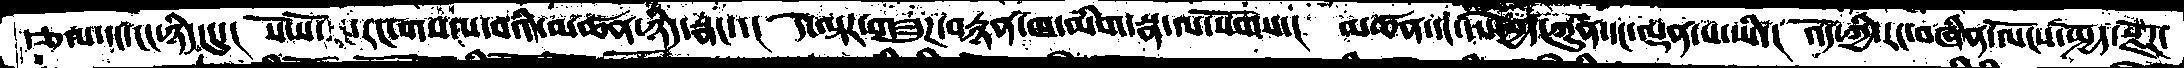རྩལ་དང་ངང་ཉིད་དུ་།  སོ་སོར་རང་རང་གསལ་བའི་མཚན་ཉིད་སྣང་་།  དེ་ལྟར་གཟུཌ་བརྙན་ཁ་མིག་སྣ་ལ་སོགས་།  མཚན་དང་དཔེ་བྱད་ཀུན་དང་ལྡན་པ་ཡི་།  འོད་ཀྱི་རང་བཞིན་ལོངས་སྤྱོད་སྫོཌ་
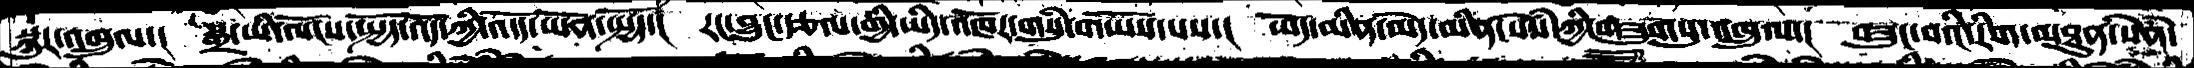སྐུར་འཁྲུལ་།  སྒྲ་ཡི་ལོངས་སྤྱོད་འོད་ཀྱི་འདོད་ཡོན་སྤྱོད་།  རང་བྱུང་རྩལ་གྱི་ཡིད་འཁོར་གསུཾ་གཡོས་པས་།  ཡོད་མིན་མེད་མིན་སེཾས་ཀྱི་གཟུགསུ་འཁྲུལ་།  བཟུང་བའི་རིག་མཐུན་སེཾན་
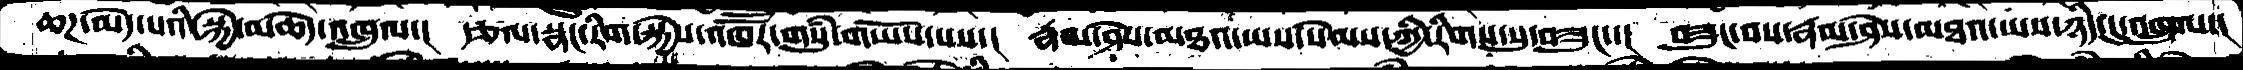ཆཌ་མེད་པའི་སྐྱེ་མཆེད་འཁྲུལ་།  རྩལ་སྣང་རིག་སྐྱེས་འཁཽར་གསུཾ་གཡོས་པས་།  རྣམ་ཤེས་མཐའ་ཡས་སེམས་ཀྱི་རིགས་སུ་བཟུང་་། བཟུང་བས་རྣམ་ཤེས་མཐའ་ཡས་ཉིད་དུ་འཁྲུལ་།
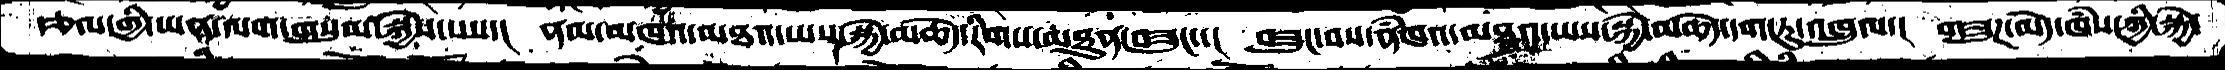རྩལ་གྱི་ཡན་ལག་གསུམ་སྐྱེས་པས་།  ནམ་མཁའ་མཐའ་ཡས་སྐྱེ་མཆེད་རིགས་མཐུན་བཟུང་་།  བཟུང་བས་ནཾཁའ་མཐའ་ཡས་སྐྱེ་མཆེད་དག་ཏུ་འཁྲུལ་།  གཟུཌ་མེད་ཁཾས་ཀྱི་སྐྱེ་
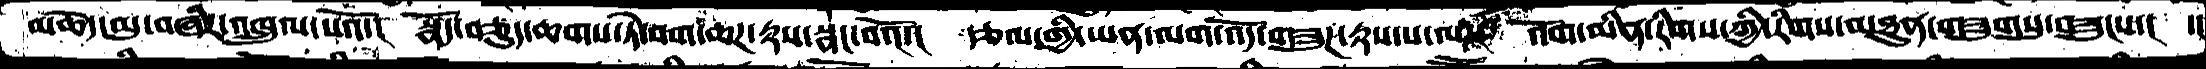མཆེད་མུ་བཞིར་འཁྲུལ་པའོ་།   སྣོད་བཅུད་ཆགས་ཏེ་བག་ཆཌ་རྟས་སྣང་བའོ་།  རྩལ་གྱི་ཡན་ལག་འོད་གཟུཌ་རྟས་པ་ལ་།  འོག་མིན་རིགས་ཀྱི་རིགས་མཐུན་གཟུགསུ་བཟུངས་།  ་།
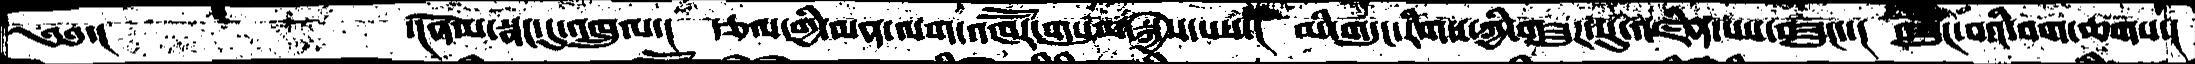༄༅་།       ་།ནོམ་སྣང་དུ་འཁྲུལ་།  རྩལ་གྱི་ཡན་ལག་འཁཽར་གསུམ་སྐྱེས་པས་།  མི་གདུང་རིགས་ཀྱི་གཟུཌ་སུ་འཛིན་པས་བཟུང་་།  བཟུང་བའི་བག་ཆགས་།
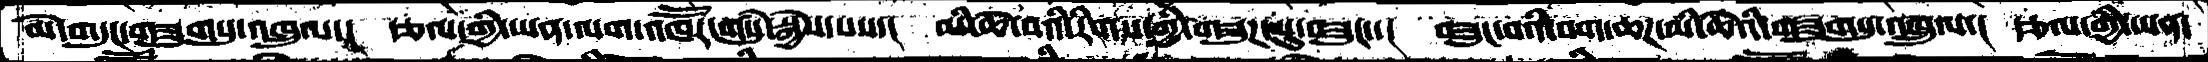མེ་གདུང་གཟུགསུ་འཁྲུལ་།  རྩལ་གྱི་ཡན་ལག་འཁཽར་གསུཾ་སྐྱེས་པས་།  མི་ཆེ་བའི་རིགས་ཀྱི་གཟུཌ་སུ་བཟུང་་།  བཟུང་བའི་བག་ཆཌ་མི་ཆེའི་གཟུགསུ་འཁྲུལ་།  རྩལ་གྱི་ཡན་
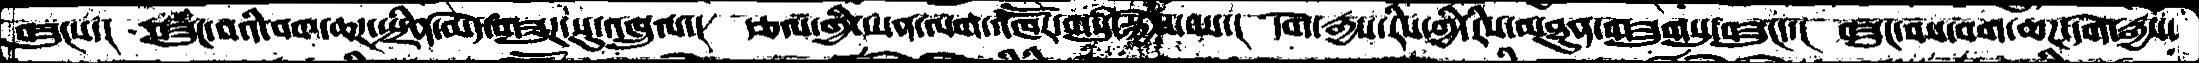བཟུང་་།  བཟུང་བའི་བག་ཆཌ་སྤྲིན་མེད་གཟུཌ་སུ་འཁྲུལ་།  རྩལ་གྱི་ཡན་ལག་འཁཽར་གསུཾ་སྐྱེས་པས་།  དགེ་རྒྱས་རིས་གྱི་རིས་མཐུན་གཟུགསུ་བཟུང་་།  བཟུང་བས་བག་ཆཌ་དགེ་རྒྱས་
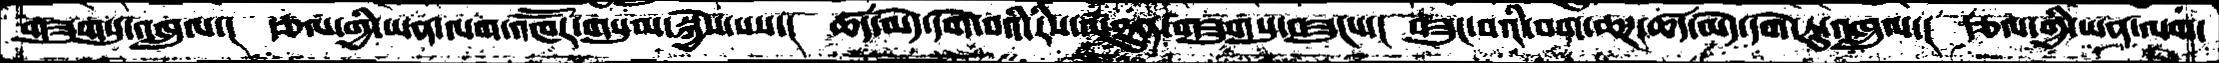གཟུགསུ་འཁྲུལ་།  རྩལ་གྱི་ཡན་ལག་འཁཽར་གསུམ་སྐྱེས་པས་།  ཚད་མེད་དགེ་བའི་རིས་མཐུན་གཟུགསུ་བཟུངས་།  བཟུང་བའི་བག་ཆཌ་ཚད་མེད་དགེ་རུ་འཁྲུལ་།  རྩལ་གྱི་ཡན་ལག་
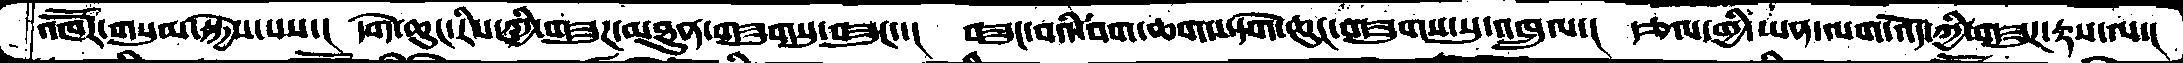འཁཽར་གསུམ་སྐྱེས་པས་།  དགེ་ཆུང་རིས་ཀྱི་གཟུཌ་མཐུན་གཟུགསུ་བཟུང་་།  བཟུང་བའི་བག་ཆགས་གཟུགས་སུ་འཁྲུལ་།  རྩལ་གྱི་ཡན་ལག་འོད་ཀྱི་གཟུཌ་རྟས་ལ་།
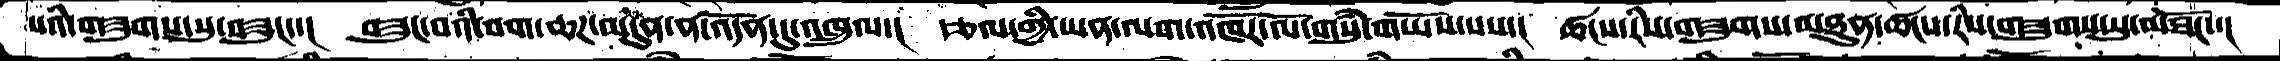པའི་གཟུགས་སུ་བཟུང་་།  བཟུང་བའི་བག་ཆཌ་མདུན་ན་འདོན་དུ་འཁྲུལ་།  རྩལ་གྱི་ཡན་ལག་འཁོར་ལོ་གསུཾ་གཡོས་པས་།  ཚངས་རིས་གཟུགས་མཐུན་ཚངས་རིས་གཟུགས་སུ་མཐོང་་།
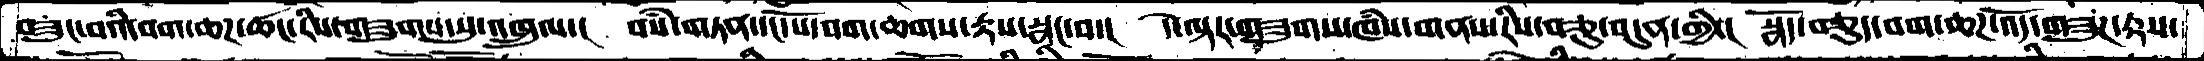བཟུང་བའི་བག་ཆཌ་ཚང་རིས་གཟུགས་སུ་འཁྲུལ་།   བསཾ་གཏན་དང་པོ་བག་ཆགས་རྟས་སྣང་བ་།  དེ་ལྟར་གཟུགས་ཁཾས་གནས་རིས་བཅུ་འདུན་གྱི་།  སྣོད་བཅུད་བག་ཆཌ་འོད་གཟུཌ་རྟས་
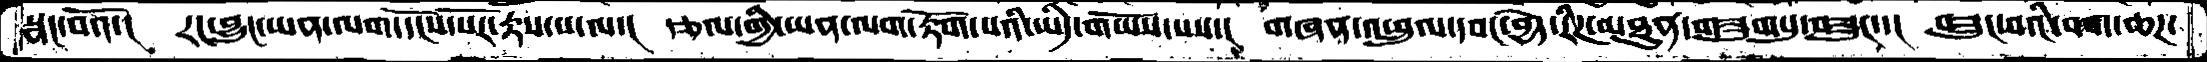སྣང་བའོ་།  རང་བྱུང་ཡན་ལག་དངོས་པོར་རྟས་པ་ལ་།  རྩལ་གྱི་ཡན་ལག་རྟོག་པའི་ཡིད་གཡོས་པས་།  གཞན་འཕྲུལ་དབང་བྱེད་རིཌ་མཐུན་གཟུགསུ་བཟུང་་།  བཟུང་བའི་བག་ཆཌ་
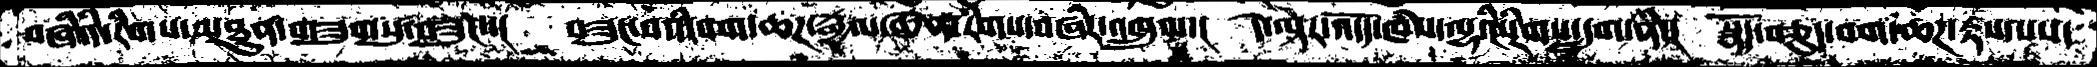བཞིའི་རིགས་མཐུན་གཟུགསུ་བཟུངས་།  བཟུང་བའི་བག་ཆཌ་རྒྱལ་ཆེན་རིགས་བཞིར་འཁྲུལ་།  དེ་ལྟར་འདོད་ཁཾས་ལྷའི་རིགས་དྲུག་ནི་།  སྣོད་བཅུད་བག་ཆཌ་རྟས་པས་
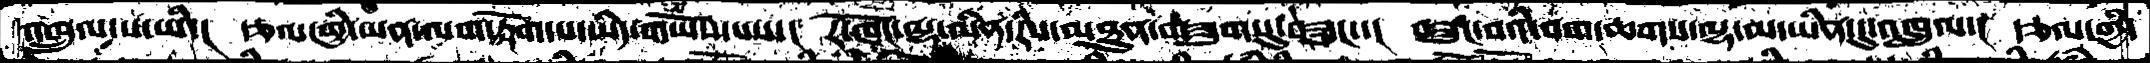འཁྲུལ་པ་ཡི་།  རྩལ་གྱི་ཡན་ལག་རྟོག་པ་ཡིད་གཡོས་པས་།  རེ་ཁོང་ལྷ་མིན་རིས་མཐུན་གཟུགསུ་བཟུང་་།  བཟུང་བའི་བག་ཆགས་ལྷ་མ་ཡིན་དུ་འཁྲུལ་།  རྩལ་གྱི་
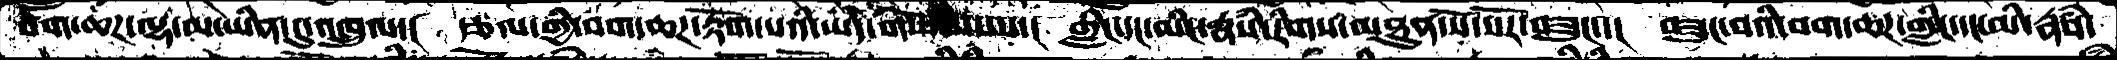བག་ཆཌ་ལྷ་མ་ཡིན་དུ་འཁྲུལ་།  རྩལ་གྱི་བག་ཆཌ་རྟོག་པའི་ཡིད་གཡོས་པས་།  གླིང་དང་མིང་རྣཾས་རིགས་མཐུན་སོ་སོར་བཟུང་་།  བཟུང་བའི་བག་ཆཌ་གླིང་དང་མི་རྣཾས་
